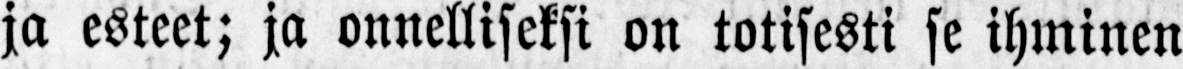ja esteet; ja onnelliseksi on totisesti se ihminen
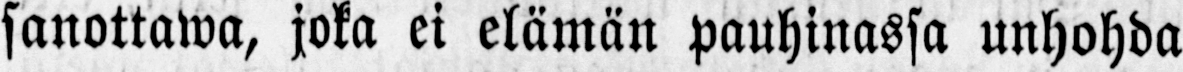sanottawa, joka ei elämän pauhinassa unhohda
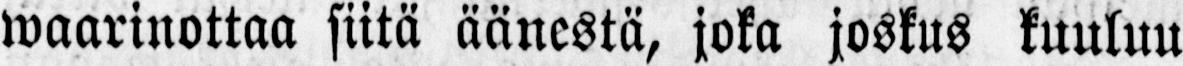waarinottaa siitä äänestä, joka joskus kuuluu
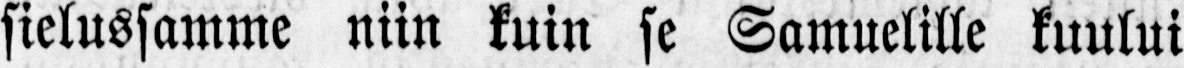sielussamme niin kuin se Samuelille kuului
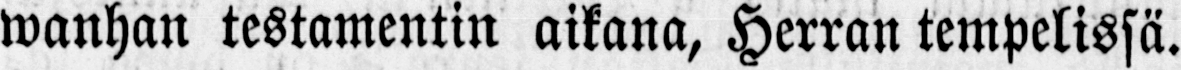wanhan testamentin aikana, Herran tempelissä.
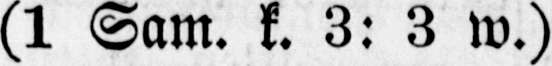(1 Sam. k. 3: 3 w.)
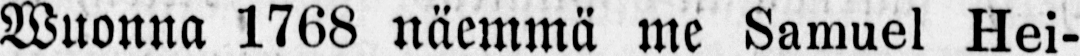Wuonna 1768 näemmä me Samuel Hei-
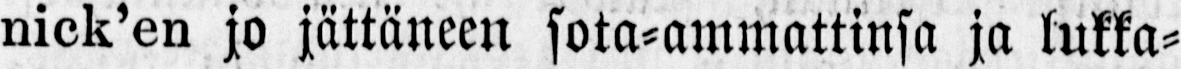nick'en jo jättäneen sota-ammattinsa ja lukka-
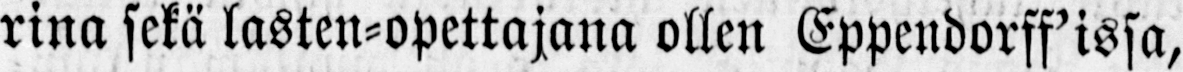rina sekä lasten-opettajana ollen Eppendorff'issa,
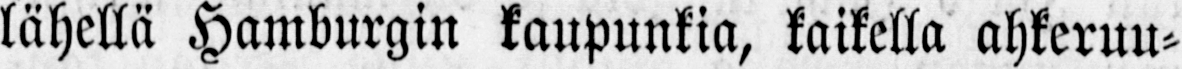lähellä Hamburgin kaupunkia, kaikella ahkeruu-
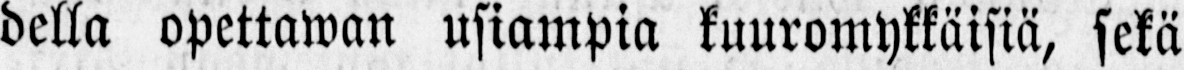della opettawan usiampia kuuromykkäisiä, sekä
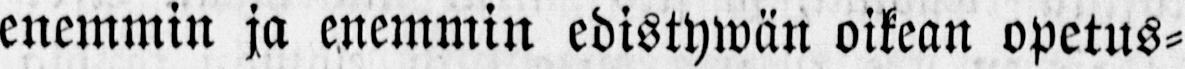enemmin ja enemmin edistywän oikean opetus-
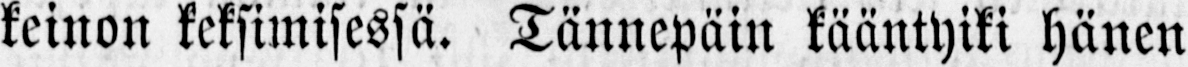keinon keksimisessä. Tännepäin kääntyiki hänen
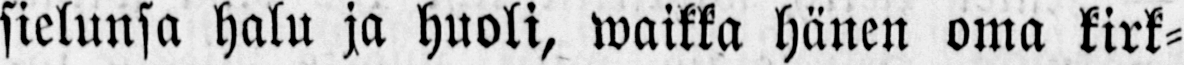sielunsa halu ja huoli, waikka hänen oma kirk-
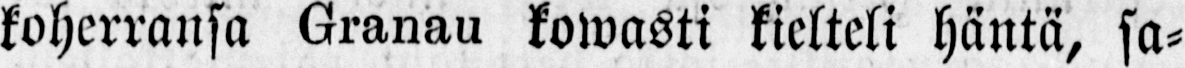koherransa Granau kowasti kielteli häntä, sa-
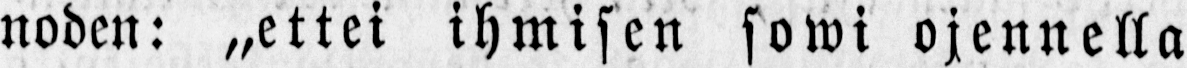noden: „ettei ihmisen sowi ojennella
